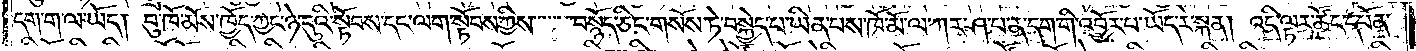དག་ག་ལ་ཡོད། བུ་ཁོ་མོས་ཁྱོད་ཀྱང་ཉེ་དུའི་སྟོབས་དང་ལག་སྟོབས་ཀྱིས་བསྙོད་ཅིང་གསོས་ཏེ་བསྐྱེད་པ་ཡིན་པས་ཁོ་མེ་ལ་ཀར་ཤ་པ་ན་དག་གིས་འབྱོར་པ་ཡོད་རེ་སྐན། འདི་ལྟར་ཚོང་དཔོན་
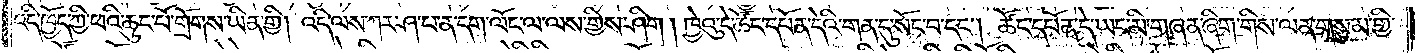འདི་ཁྱོད་ཀྱི་ཕའི་ཆུང་པོ་གྲོགས་ཡིན་གྱི། འདི་ལས་ཀར་ཤ་པ་ན་དག་ལོང་ལ་ལས་གྱིས་ཤིག །ཁྱེའུ་དེ་ཚོང་དཔོན་དེའི་གན་དུ་སོང་བ་དང༌། ཚོང་དཔོན་དེ་ཡང་མི་གཞན་ཞིག་གིས་ལན་གསུམ་གྱི་
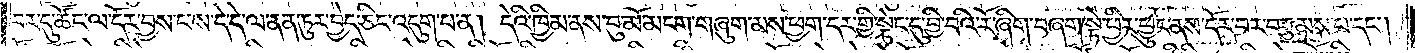བར་དུ་ཚོང་ལ་དོར་བྱས་པས་དེ་དེ་ལ་ནན་ཏུར་བྱེད་ཅིང་འདུག་པ་ན། དེའི་ཁྱིམ་ནས་བུ་མོ་མངག་གཞུག་མས་ཕྱག་དར་གྱི་སྟེང་དུ་བྱི་བའི་རོ་ཞིག་བཞག་སྟེ་ཕྱིར་ཕྱུང་ནས་དོར་བར་བརྩམས་པ་དང༌།
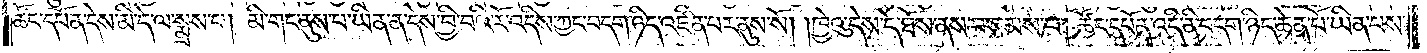ཚོང་དཔོན་དེས་མི་དེ་ལ་སྨྲས་པ། མི་གང་ནུས་པ་ཡིན་ན་དེས་བྱི་བའི་རོ་འདིས་ཀྱང་བདག་ཉིད་འཛིན་པར་ནུས་སོ། །ཁྱེའུ་དེས་དེ་ཐོས་ནས་བསམས་པ། ཚོང་དཔོན་འདི་ནི་བདག་ཉིད་ཆེན་པོ་ཡིན་པས་
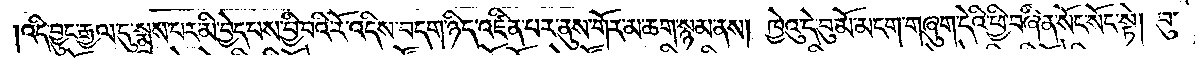འདི་བྱུང་རྒྱལ་དུ་སྨྲས་པར་མི་བྱེད་པས་བྱི་བའི་རོ་འདིས་བདག་ཉིད་འཛིན་པར་ནུས་གོར་མ་ཆག་སྙམ་ནས། ཁྱེའུ་དེ་བུ་མོ་མངག་གཞུག་དེའི་ཕྱི་བཞིན་སོང་སོང་སྟེ། བུ་
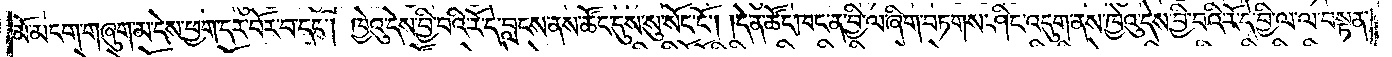མོ་མངག་གཞུག་མ་དེས་ཕྱག་དར་པོར་བ་དང༌། ཁྱེའུ་དེས་བྱི་བའི་རོ་དེ་བླངས་ནས་ཚོང་དུས་སུ་སོང་ངོ༌། །དེ་ན་ཚོང་ཁང་ན་བྱི་ལ་ཞིག་བཏགས་ཤིང་འདུག་ནས་ཁྱེའུ་དེས་བྱི་བའི་རོ་དེ་བྱི་ལ་ལ་བསྟན་
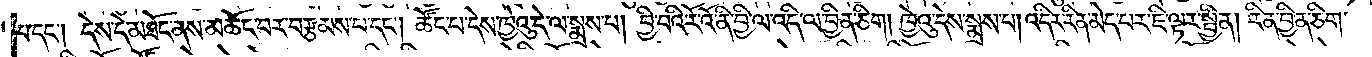པ་དང༌། དེས་དེ་མཐོང་ནས་མཆོང་པར་བརྩམས་པ་དང༌། ཚོང་པ་དེས་ཁྱེའུ་དེ་ལ་སྨྲས་པ། བྱི་བའི་རོའོ་ནི་བྱི་ལ་འདི་ལ་བྱིན་ཅིག །ཁྱེའུ་དེས་སྨྲས་པ། འདིར་རིན་མེད་པར་ཇི་ལྟར་སྦྱིན། རིན་བྱིན་ཅིག་
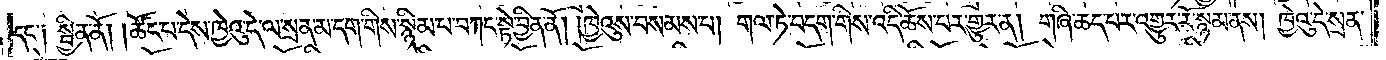དང༌། སྦྱིན་ནོ། །ཚོང་པ་དེས་ཁྱེའུ་དེ་ལ་སྲན་མ་དག་གིས་སྙིམ་པ་བཀང་སྟེ་བྱིན་ནོ། །ཁྱེའུས་བསམས་པ། གལ་ཏེ་བདག་གིས་འདི་ཆོས་པར་གྱུར་ན། གཞི་ཆད་པར་འགྱུར་རོ་སྙམ་ནས། ཁྱེའུ་དེ་སྲན་
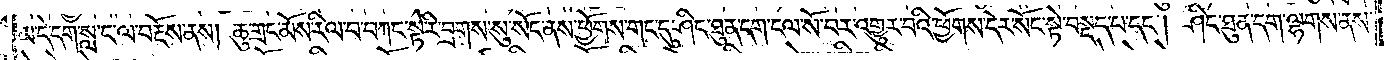མ་དེ་དག་སླ་ང་ལ་བརྔོས་ནས། ཆུ་གྲང་མོས་རིལ་བ་བཀང་སྟེ་རི་བྲགས་སུ་སོང་ནས་ཕྱོགས་གང་དུ་ཤིང་ཐུན་དག་ངལ་སོ་བར་འགྱུར་བའི་ཕྱོགས་དེར་སོང་སྟེ་བསྡད་པ་དང༌། ཤིང་ཐུན་དག་ལྷགས་ནས་
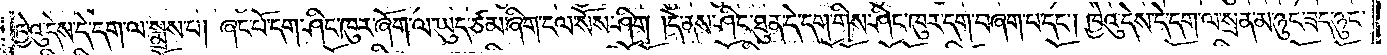ཁྱེའུ་དེས་དེ་དག་ལ་སྨྲས་པ། ཞང་པོ་དག་ཤིང་ཁུར་ཞོག་ལ་ཡུད་ཙམ་ཞིག་ངལ་སོས་ཤིག །དེ་ནས་ཤིང་ཐུན་དེ་དག་གིས་ཤིང་ཁུར་དག་བཞག་པ་དང༌། ཁྱེའུ་དེས་དེ་དག་ལ་སྲན་མ་ཉུང་ཟད་ཉུང་
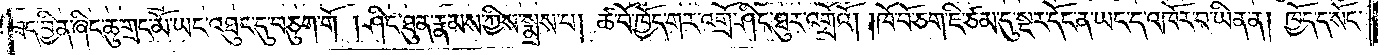ཟད་བྱིན་ཞིང་ཆུ་གྲང་མོ་ཡང་འཐུང་དུ་བཅུག་གོ །ཤིང་ཐུན་རྣམས་ཀྱིས་སྨྲས་པ། ཚ་བོ་ཁྱོད་གར་འགྲོ་ཤིང་ཐུར་འགྲོའོ། །ཁོ་བོ་ཅག་ཇི་ཙམ་དུ་སྔར་དོང་ན་ཡང་ད་འཁོར་བ་ཡིན་ན། ཁྱོད་ད་སོང་
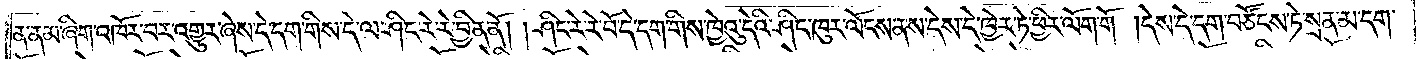ན་ནམ་ཞིག་འཁོར་བར་འགྱུར་ཞེས་དེ་དག་གིས་དེ་ལ་ཤིང་རེ་རེ་བྱིན་ནོ། །ཤིང་རེ་རེ་བོ་དེ་དག་གིས་ཁྱེའུ་དེའི་ཤིང་ཁུར་ལོངས་ནས་དེས་དེ་ཁྱེར་ཏེ་ཕྱིར་ལོག་གོ །དེས་དེ་དག་བཙོངས་ཏེ་སྲན་མ་དག་
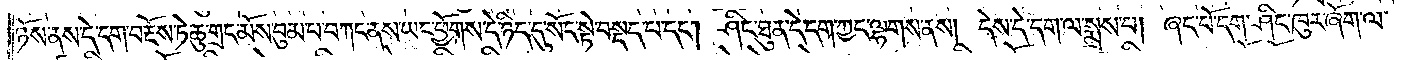ཉོས་ནས་དེ་དག་བརྔོས་ཏེ་ཆུ་གྲང་མོས་བུམ་པ་བཀང་ནས་ཡང་ཕྱོགས་དེ་ཉིད་དུ་སོང་སྟེ་བསྡད་པ་དང༌། ཤིང་ཐུན་དེ་དག་ཀྱང་ལྷགས་ནས། དེས་དེ་དག་ལ་སྨྲས་པ། ཞང་པོ་དག་ཤིང་ཁུར་ཞོག་ལ་
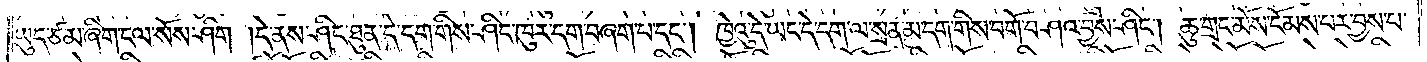ཡུད་ཙམ་ཞིག་ངལ་སོས་ཤིག །དེ་ནས་ཤིང་ཐུན་དེ་དག་གིས་ཤིང་ཁུར་དག་བཞག་པ་དང༌། ཁྱེའུ་དེ་ཡང་དེ་དག་ལ་སྲན་མ་དག་གིས་བགོ་བཤའ་བྱས་ཤིང༌། ཆུ་གྲང་མོས་ངོམས་པར་བྱས་པ་
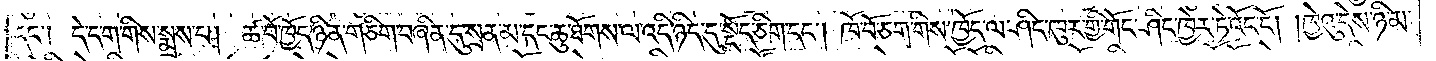དང༌། དེ་དག་གིས་སྨྲས་པ། ཚ་བོ་ཁྱོད་ཉིན་གཅིག་བཞིན་དུ་སྲན་མ་དང་ཆུ་ཐོགས་ལ་འདི་ཉིད་དུ་སྡོད་ཅིག་དང༌། ཁོ་བོ་ཅག་གིས་ཁྱོད་ལ་ཤིང་ཁུར་གྱི་གོང་ཤིང་ཁྱེར་ཏེ་འོང་ངོ༌། །ཁྱེའུ་དེས་ཉི་མ་
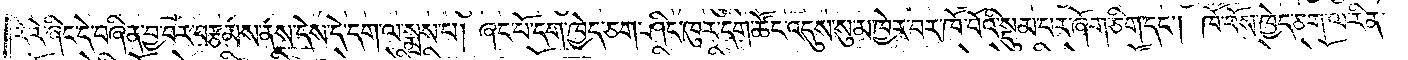རེ་རེ་ཞིང་དེ་བཞིན་བྱ་བར་བརྩམས་ནས་དེས་དེ་དག་ལ་སྨྲས་པ། ཞང་པོ་དག་ཁྱེད་ཅག་ཤིང་ཁུར་དག་ཚོང་འདུས་སུ་མ་ཁྱེར་བར་ཁོ་བོའི་སྡུམ་པར་ཞོག་ཅིག་དང༌། ཁོ་བོས་ཁྱེད་ཅག་ལ་རིན་
